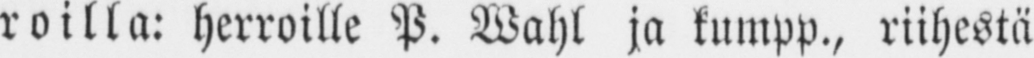roilla: herroille P. Wahl ja kumpp., riihestä
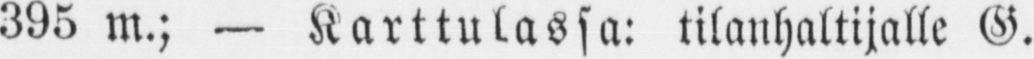395 m.; — Karttulassa: tilanhaltijalle G.
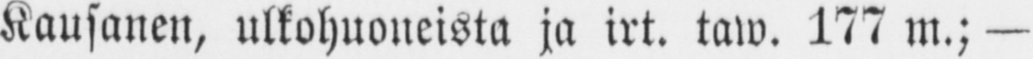Kausanen, ulkohuoneista ja irt. taw. 177 m.; —
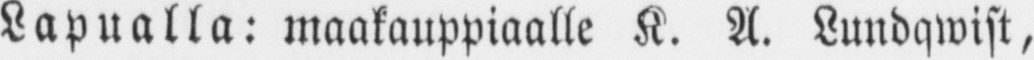Lapualla: maakauppiaalle K. A. Lundgwist,
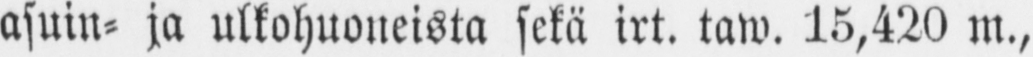asuin- ja ulkohuoneista sekä irt. taw. 15,420 m.,
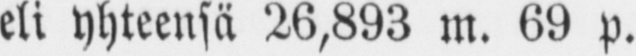eli yhteensä 26,893 m. 69 p.
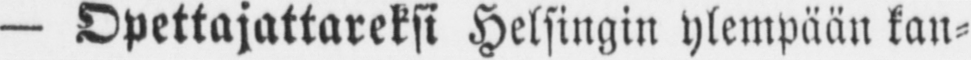— Opettajattareksi Helsingin ylempään kan-
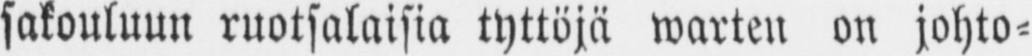sakouluun ruotsalaisia tyttöjä warten on johto-
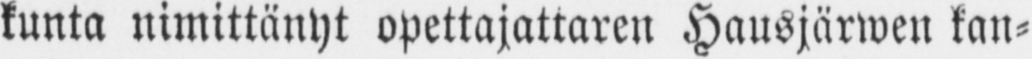kunta nimittänyt opettajattaren Hansjärwen kan-
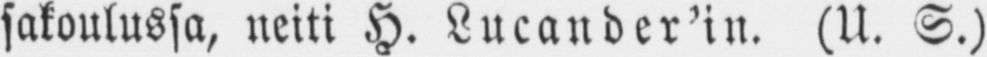sakoulussa, neiti H. Lucander’in. (U. S.)
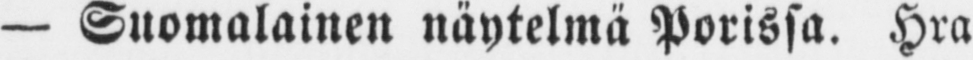— Suomalainen näytelmä Porissa. Hra
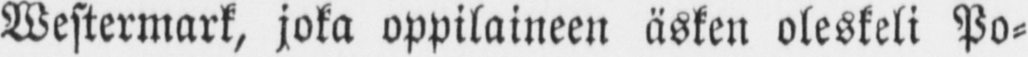Westermark, joka oppilaineen äsken oleskeli Po-
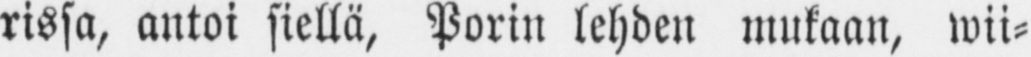rissa, antoi siellä, Porin lehden mukaan, wii-
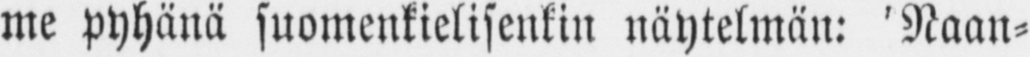me pyhänä suomenkielisenkin näytelmän: ’Naan-
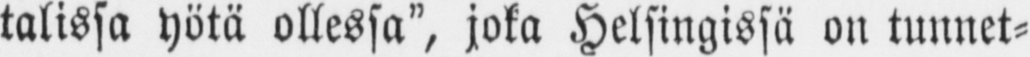talissa yötä ollessa”, joka Helsingissä on tunnet-
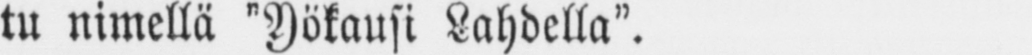tu nimellä ”Yökausi Lahdella”.
